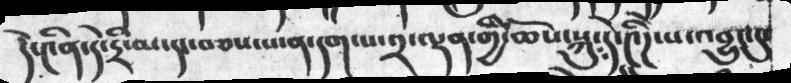དེ་༤ིན་དེ་དྲི་མ་དང་བཅས་པ་ན་དག་པ་༢་ལྡན་གྱི་ཆོས་སྐུ་དེ་༤ིཌེ་པ་འབྱུང་དུ་
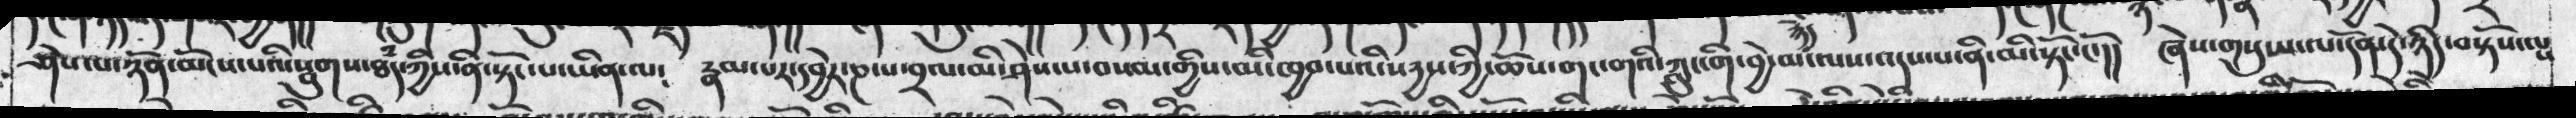ཤེས་པ་ཉོན་མོངས་པའི་སྦུགས་ཐཾད་ཀྱིས་ནི་སྟོང་པ་ཡིན་ལ༴  རྣམ་པར་དབྱེར་ཎ་པ་བྲལ་མི་ཤེས་པ་བསམ་གྱིས་མི་ཁྱབ་པའི་སདྱས་ཀྱི་ཆོས་གང་གའི་ཀླུང་གི་བྱེ་མ་ལས་འདས་པ་ནི་མི་སྟོང་ངོ་།། ཞེས་གསུངས་ལ་དོན་དེ་ཉིད་བསྟོས་ལྤ
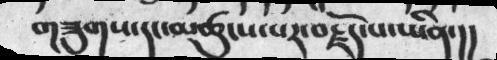གཟུགས་དང་མཚུངས་པར་བརྗོད་པ་ཡིན་།།
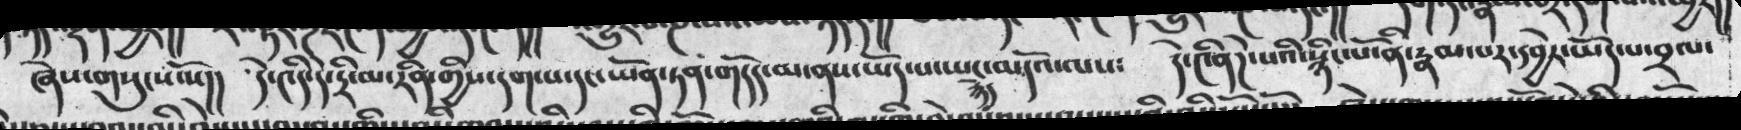ཞེས་གསུངས་སོ།། དེ་༤དེ་དྲི་མ་རིན་གྱིས་དག་པ་དང་ཡོན་ཏན་གདོད་མ་ནས་ཡོད་པ་ཡང་མདོའ་ལས༴   དེ་༤ིནདེ་པའི་སྙིང་པོ་ན་རྣམ་པར་དབྱེར་ཡོད་པ་བྲལ་
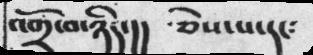འགྲོ་བ་ཉིད་།། ཅེས་པ་དང༴
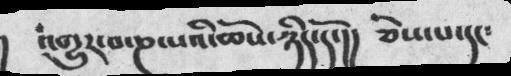། འགྱུར་བ་ཎ་སའི་ཆོས་ཉིད་དོ་།། ཅེས་པ་དང༴
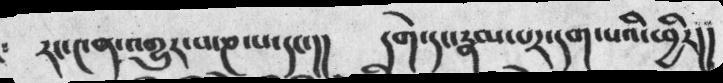༴ རང་༤ན་འགྱུར་པ་ཎ་པ་དང་།། དགེ་དང་རྣམ་པར་དག་པའི་ཕྱིར།།
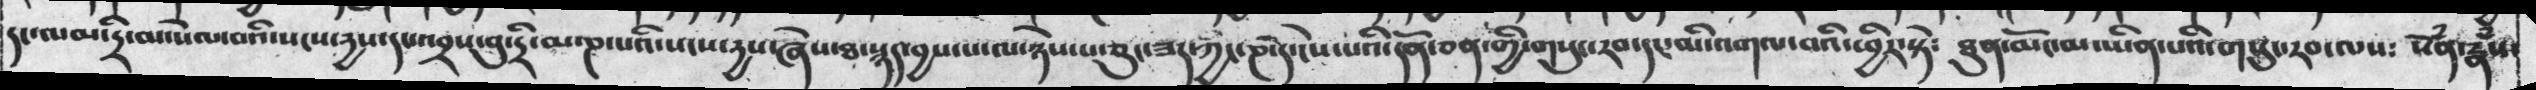དང་ལམ་དྲི་མ་སེལ་བའི་སངས་དྱས་དང་འབྲས་བུ་དྲི་མ་ཎ་པའི་སངས་རྱས་ཞེས་ཐ་སྙད་བྱས་པ་ལ་ཉེས་པ་ཅུང་ཟད་ཀྱི་ཎ་དེ་ངེས་པའི་དོན་ཅན་གྱི་གསུང་རབ་དང་མི་འགལ་བའི་ཕྱིར་སྟེ༴ ཐུན་མོང་མ་ཡིན་པའི་གསུང་རབ་ལས༴ སེཾན་རྣཾས་
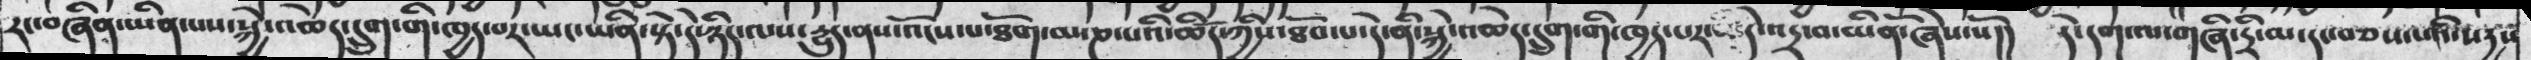རང་བཞིན་ཡིན་པས་སྐྱེ་འཆེད་དྲུག་གི་ཁྱད་པར་ཡང་ཡིན་སྟེ་དེ་ཉིད་ལས་རྱུད་ནས་འོངས་པ་ཐོག་མ་ཎ་པའི་ཚིད་ཀྱིས་ཐོབ་པ་དེ་ནི་སྐྱེ་འཆེད་དྲུག་གི་ཁྱད་པར་ དེ་འདྲ་བ་ཡིནོ་ཞེས་སོ།།  དེ་དག་ལ་གཞི་དྲི་མ་དང་བཅས་པའི་སརྱས
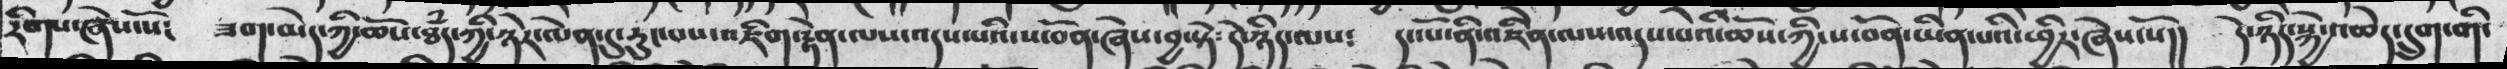རིགས་ཞེས་སོ༴ ཟག་མེད་ཀྱི་ཆོས་ཐཾད་ཀྱི་ཉེར་ལེན་དུ་རུང་པས་འཇིག་རྟེན་ལས་འདས་པའི་ས་བོན་ཞེས་བྱ་སྟེ༴ དེ་ཉིད་ལས༴ དང་པོ་ནི་འཇིན་ལས་འདས་པའི་ཆོས་ཀྱི་ས་བོན་ཡིན་པའི་ཕྱིར་ཞེས་སོ།། དེ་ཉིད་སྐྱེ་འཆེད་དྲུག་གི་
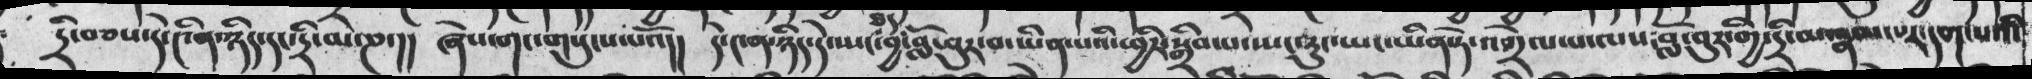དྲི་བཅས་དེ་༤ིན་ཉིད་དང་དྲི་མ་ཎ་།།  ཞེས་གང་གསུངས་པའོ།།  དེ་༤ན་ཉིད་དེ་ཡང་ཐད་བྱ་བློ་བུར་བ་ཡིན་པའི་ཕྱིར་སྒྲིབ་པ་ཡང་ཏུང་ཡང་ཡིན་ཏེ་འགྲེལ་པ་ལས་བློ་བུར་གྱི་དྲི་མ་རྣམ་པར་དག་པའི་
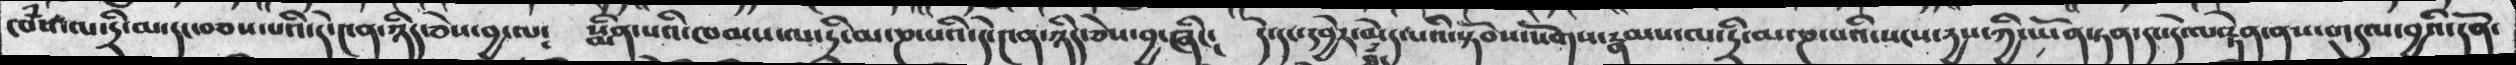ཁཾས་ལ་དྲི་མ་དང་བཅས་པའི་དེ་༤ན་ཉིད་ཅེས་བྱ་ལ༴  སྨིན་པའི་ཁམས་ལ་དྲི་མ་ཎ་པའི་དེ་༤ན་ཉིད་ཅེས་བྱ་ཞིང༴  དེ་དང་དབྱེར་མེད་པའི་སྟོབས་སོགས་རྣམས་ལ་དྲི་མ་ཎ་པའི་སངས་དྱས་ཀྱི་ཡོན་ཏན་༤་དེ་ལ་རྟེན་ནས་གདུལ་བྱའི་དོན་
